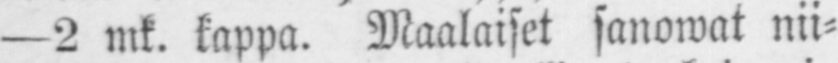—2 mk. kappa. Maalaiset sanowat nii-
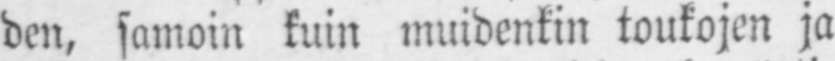den, samoin kuin muidenkin toukojen ja
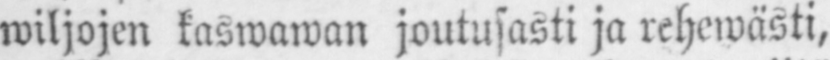wiljojen kaswawan joutusasti ja rehewästi,
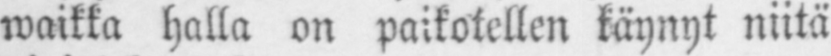waikka halla on paikotellen käynyt niitä
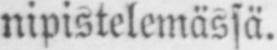nipistelemässä.
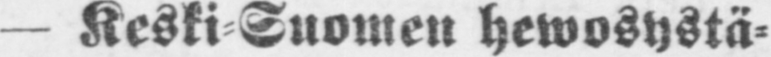— Keski-Suomen hewosystä-
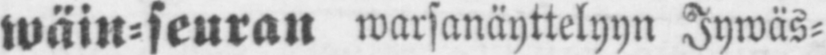wäin-seuran warsanäyttelyyn Jywäs-
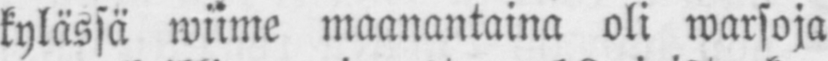kylässä wiime maanantaina oli warsoja
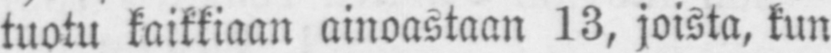tuotu kaikkiaan ainoastaan 13, joista, kun
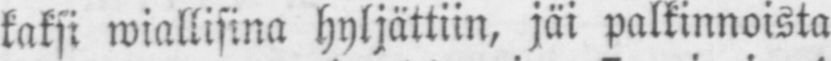kaksi wiallisina hyljättiin, jäi palkinnoista
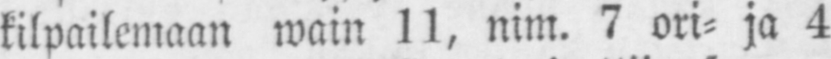kilpailemaan wain 11, nim. 7 ori- ja 4
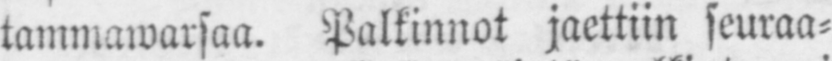tammawarsaa. Palkinnot jaettiin seuraa-
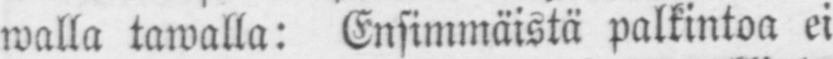walla tawalla: Ensimmäistä palkintoa ei
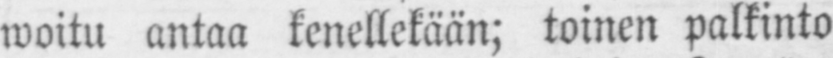woitu antaa kenellekään; toinen palkinto
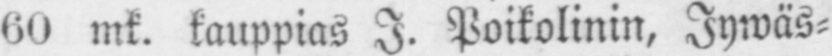60 mk. kauppias I. Poikolinin, Jywäs-
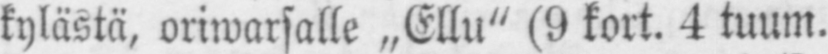kylästä, oriwarsalle „Ellu" (9 kort. 4 tuum.
